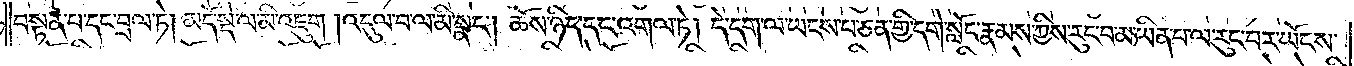བསྟན་པ་དང་བྲལ་ཏེ། མདོ་སྡེ་ལ་མི་འཇུག །འདུལ་བ་ལ་མི་སྣང༌། ཆོས་ཉིད་དང་འགལ་ཏེ། དེ་དག་ལ་ཡངས་པ་ཅན་གྱི་དགེ་སློང་རྣམས་ཀྱིས་རུང་བ་མ་ཡིན་པ་ལ་རུང་བར་ཡོངས་
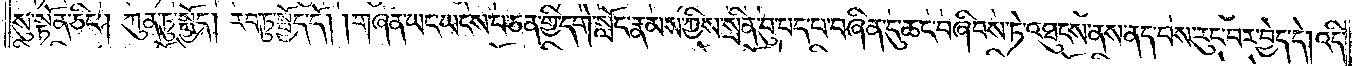སུ་སྟོན་ཅིང༌། ཀུན་ཏུ་སྤྱོད། རབ་ཏུ་སྤྱོད་དོ། །གཞན་ཡང་ཡངས་པ་ཅན་གྱི་དགེ་སློང་རྣམས་ཀྱིས་སྲིན་བུ་པད་པ་བཞིན་དུ་ཆང་བཞིབས་ཏེ་འཐུངས་ནས་ནད་པས་རུང་བར་བྱེད་དེ། འདི་
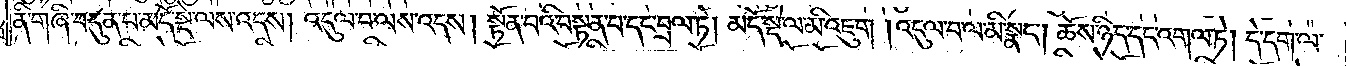ནི་གཞི་བདུན་པ་མདོ་སྡེ་ལས་འདས། འདུལ་བ་ལས་འདས། སྟོན་པའི་བསྟན་པ་དང་བྲལ་ཏེ། མདོ་སྡེ་ལ་མི་འཇུག །འདུལ་བ་ལ་མི་སྣང༌། ཆོས་ཉིད་དང་འགལ་ཏེ། དེ་དག་ལ་
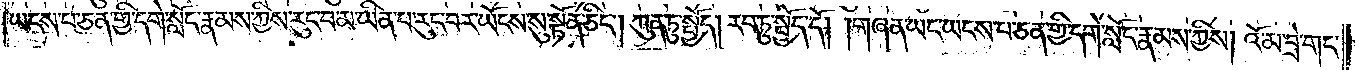ཡངས་པ་ཅན་གྱི་དགེ་སློང་རྣམས་ཀྱིས་རུང་བ་མ་ཡིན་པ་རུང་བར་ཡོངས་སུ་སྟོན་ཅིང༌། ཀུན་ཏུ་སྤྱོད་།རབ་ཏུ་སྤྱོད་དོ། །གཞན་ཡང་ཡངས་པ་ཅན་གྱི་དགེ་སློང་རྣམས་ཀྱིས། འོ་མ་བྲེ་གང་
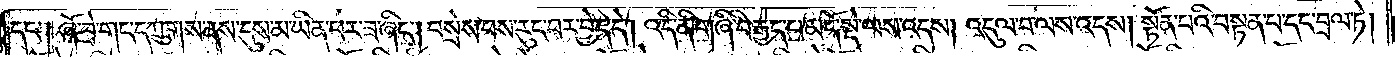དང༌། ཞོ་དེ་གང་དཀྲུགས་ནས་དུས་མ་ཡིན་པར་ཟ་ཞིང༌། བསྲེས་པས་རུང་བར་བྱེད་དེ། འདི་ནི་གཞི་བརྒྱད་པ་མདོ་སྡེ་ལས་འདས། འདུལ་བ་ལས་འདས། སྟོན་པའི་བསྟན་པ་དང་བྲལ་ཏེ།
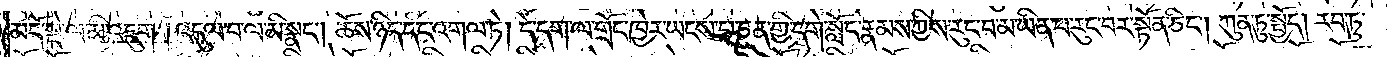མདོ་སྡེ་ལ་མི་འཇུག །འདུལ་བ་ལ་མི་སྣང༌། ཆོས་ཉིད་དང་འགལ་ཏེ། དེ་དག་ལ་གྲོང་ཁྱེར་ཡངས་པ་ཅན་གྱི་དགེ་སློང་རྣམས་ཀྱིས་རུང་བ་མ་ཡིན་པ་རུང་བར་སྟོན་ཅིང༌། ཀུན་ཏུ་སྤྱོད། རབ་ཏུ་
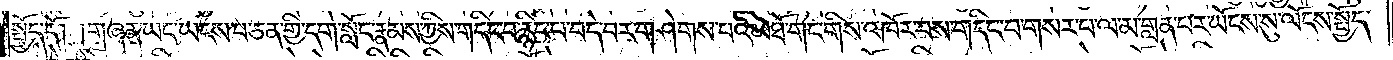སྤྱོད་དོ། །གཞན་ཡང་ཡངས་པ་ཅན་གྱི་དགེ་སློང་རྣམས་ཀྱིས་གདིང་བ་རྙིད་པ་བདེ་བར་གཤེགས་པའི་མཐོ་གང་གིས་འཁོར་བས་གདིང་བ་གསར་པ་ལ་མ་གླན་པར་ཡོངས་སུ་ལོངས་སྤྱོད་
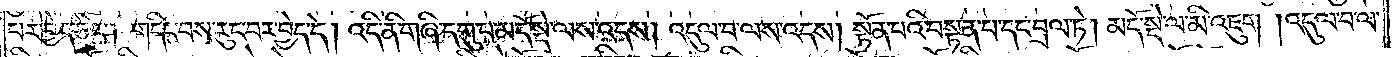པར་བྱེད་ཅིང༌། གདིང་བས་རུང་བར་བྱེད་དེ། འདི་ནི་གཞི་དགུ་པ་མདོ་སྡེ་ལས་འདས། འདུལ་བ་ལས་འདས། སྟོན་པའི་བསྟན་པ་དང་བྲལ་ཏེ། མདོ་སྡེ་ལ་མི་འཇུག །འདུལ་བ་ལ་
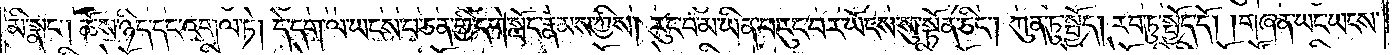མི་སྣང༌། ཆོས་ཉིད་དང་འགལ་ཏེ། དེ་དག་ལ་ཡངས་པ་ཅན་གྱི་དགེ་སློང་རྣམས་ཀྱིས། རུང་བ་མ་ཡིན་པ་རུང་བར་ཡོངས་སུ་སྟོན་ཅིང༌། ཀུན་ཏུ་སྤྱོད། རབ་ཏུ་སྤྱོད་དོ། །གཞན་ཡང་ཡངས་
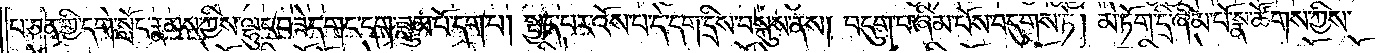པ་ཅན་གྱི་དགེ་སློང་རྣམས་ཀྱིས་ལྷུང་བཟེད་གང་དག་ཟླུམ་པོ་དག་པ། སྤྱད་པར་འོས་པ་དེ་དག་དྲིས་བསྐུས་ནས། བདུག་པ་ཞིམ་པོས་བདུགས་ཏེ། མེ་ཏོག་དྲི་ཞིམ་པོ་སྣ་ཚོགས་ཀྱིས་
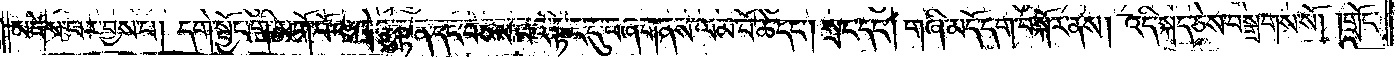མཛེས་པར་བྱས་པ། དགེ་སྦྱོང་གི་མགོ་བོ་ལ་ཁྲེའུ་སྟན་དང་བཅས་པའི་སྟེང་དུ་བཞག་ནས་ལམ་བོ་ཆེ་དང༌། སྲང་དང༌། གཞི་མདོ་དག་བསྐོར་ནས། འདི་སྐད་ཅེས་བསྒྲགས་སོ། །གྲོང་
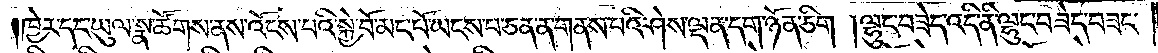།ཁྱེར་དང་ཡུལ་སྣ་ཚོགས་ནས་འོངས་པའི་སྐྱེ་བོ་མང་པོ་ཡངས་པ་ཅན་ན་གནས་པའི་ཤེས་ལྡན་དག་ཉོན་ཅིག །ལྷུང་བཟེད་འདི་ནི་ལྷུང་བཟེད་བཟང་
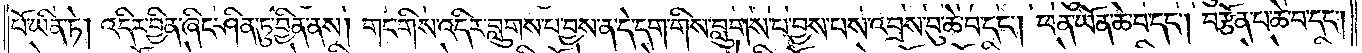པོ་ཡིན་ཏེ། འདིར་བྱིན་ཞིང་ཤིན་ཏུ་བྱིན་ནས། གང་གིས་འདིར་བླུགས་པ་བྱས་ན་དེ་དག་གིས་བླུགས་པ་བྱས་པས་འབྲས་བུ་ཆེ་བ་དང༌། ཕན་ཡོན་ཆེ་བ་དང༌། བརྩོན་པ་ཆེ་བ་དང༌།
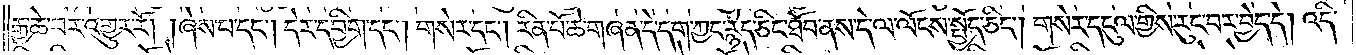རྒྱ་ཆེ་བར་འགྱུར་རོ། །ཞེས་པ་དང༌། དེར་དབྱིག་དང༌། གསེར་དང༌། རིན་པོ་ཆེ་གཞན་དེ་དག་ཀྱང་རྙེད་ཅིང་ཐོབ་ནས་དེ་ལ་ལོངས་སྤྱོད་ཅིང༌། གསེར་དངུལ་གྱིས་རུང་བར་བྱེད་དེ། འདི་
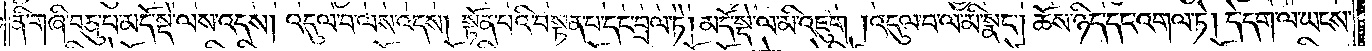ནི་གཞི་བཅུ་པ་མདོ་སྡེ་ལས་འདས། འདུལ་བ་ལས་འདས། སྟོན་པའི་བསྟན་པ་དང་བྲལ་ཏེ། མདོ་སྡེ་ལ་མི་འཇུག །འདུལ་བ་ལ་མི་སྣང༌། ཆོས་ཉིད་དང་འགལ་ཏེ། དེ་དག་ལ་ཡངས་
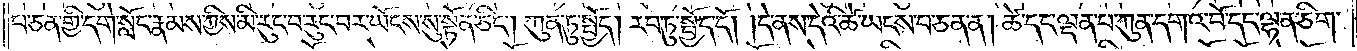པ་ཅན་གྱི་དགེ་སློང་རྣམས་ཀྱིས་མི་རུང་བ་རུང་བར་ཡོངས་སུ་སྟོན་ཅིང༌། ཀུན་ཏུ་སྤྱོད། རབ་ཏུ་སྤྱོད་དོ། །དེ་ནས་དེའི་ཚེ་ཡངས་པ་ཅན་ན། ཚེ་དང་ལྡན་པ་ཀུན་དགའ་བོ་དང་ལྷན་ཅིག་
